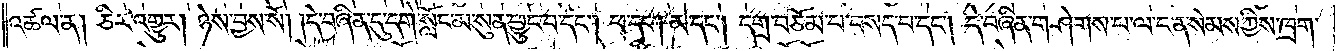འཚལ་ན། ཅིར་འགྱུར། ཉེས་བྱས་སོ། །དེ་བཞིན་དུ་དགེ་སློང་མ་སུན་ཕྱུང་བ་དང༌། ཕ་དང༌། མ་དང༌། དགྲ་བཅོམ་པ་བསད་པ་དང༌། དེ་བཞིན་གཤེགས་པ་ལ་ངན་སེམས་ཀྱིས་ཁྲག་
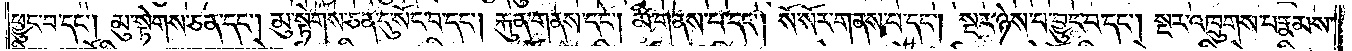ཕྱུང་བ་དང༌། མུ་སྟེགས་ཅན་དང༌། མུ་སྟེགས་ཅན་དུ་སོང་བ་དང༌། རྐུན་གནས་དང༌། མི་གནས་པ་དང༌། སོ་སོར་གནས་པ་དང༌། སྔར་ཉེས་པ་བྱུང་བ་དང༌། སྔར་འཁྲུགས་པ་རྣམས་
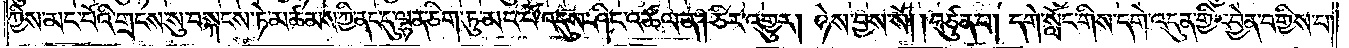ཀྱིས་མང་པོའི་གྲངས་སུ་བསྐངས་ཏེ་མཚམས་ཀྱི་ནང་དུ་ལྷན་ཅིག་ཏུ་མང་པོ་འདུས་ཤིང་འཚལ་ན། ཅིར་འགྱུར། ཉེས་བྱས་སོ། །བཙུན་པ། དགེ་སློང་གིས་དགེ་འདུན་གྱི་དབྱེན་བགྱིས་པ་
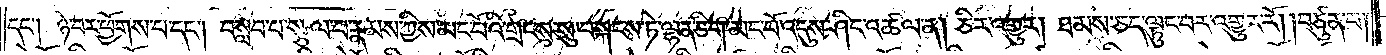དང༌། ཉེ་བར་ཕྱོགས་པ་དང༌། བསླབ་པ་སྩལ་པ་རྣམས་ཀྱིས་མང་པོའི་གྲངས་སུ་བསྐངས་ཏེ་ལྷན་ཅིག་མང་པོ་འདུས་ཤིང་འཚལ་ན། ཅིར་འགྱུར། ཐམས་ཅད་ལྟུང་བོར་འགྱུར་རོ། །བཙུན་པ།
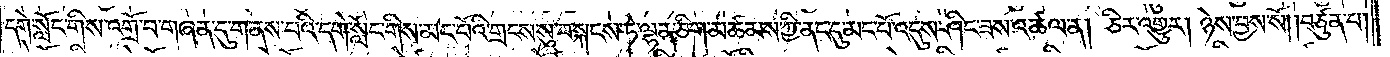དགེ་སློང་གིས་འགྲོ་བ་གཞན་དུ་གནས་པའི་དགེ་སློང་གིས་མང་པོའི་གྲངས་སུ་བསྐངས་ཏེ་ལྷན་ཅིག་མཚམས་ཀྱི་ནང་དུ་མང་པོ་འདུས་ཤིང་ཟས་འཚལ་ན། ཅིར་འགྱུར། ཉེས་བྱས་སོ། །བཙུན་པ།
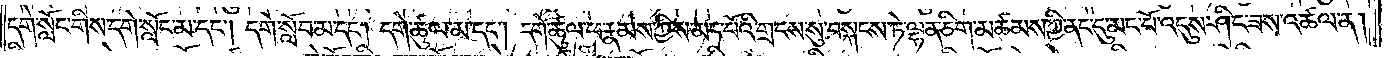དགེ་སློང་གིས་དགེ་སློང་མ་དང༌། དགེ་སློབ་མ་དང༌། དགེ་ཚུལ་མ་དང༌། དགེ་ཚུལ་ཕ་རྣམས་ཀྱིས་མང་པོའི་གྲངས་སུ་བསྐངས་ཏེ་ལྷན་ཅིག་མཚམས་ཀྱི་ནང་དུ་མང་པོ་འདུས་ཤིང་ཟས་འཚལ་ན།
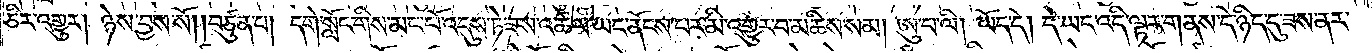ཅིར་འགྱུར། ཉེས་བྱས་སོ། །བཙུན་པ། དགེ་སློང་གིས་མང་པོ་འདུས་ཏེ་ཟས་འཚལ་ཡང་ནོངས་པར་མི་འགྱུར་བ་མཆིས་སམ། ཨུ་པ་ལི། ཡོད་དེ། དེ་ཡང་འདི་ལྟར་གནས་དེ་ཉིད་དུ་ཟས་ནར་
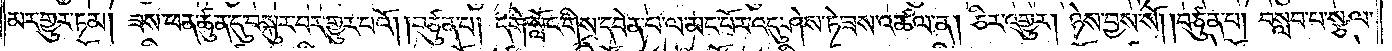མར་གྱུར་ཏམ། ཟས་ཕན་ཚུན་དུ་བསྐུར་བར་གྱུར་པའོ། །བཙུན་པ། དགེ་སློང་གིས་དབེན་པ་ལ་མང་པོར་འདུ་ཤེས་ཏེ་ཟས་འཚལ་ན། ཅིར་འགྱུར། ཉེས་བྱས་སོ། །བཙུན་པ། བསླབ་པ་སྩལ་
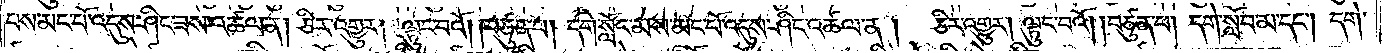པས་མང་པོ་འདུས་ཤིང་ཟས་འཚལ་ན། ཅིར་འགྱུར། ལྟུང་བའོ། །བཙུན་པ། དགེ་སློང་མས་མང་པོ་འདུས་ཤིང་འཚལ་ན། ཅིར་འགྱུར། ལྟུང་བའོ། །བཙུན་པ། དགེ་སློང་མ་དང༌། དགེ་
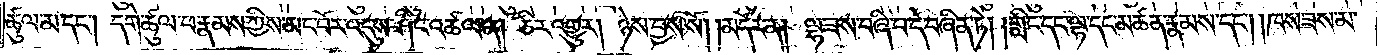ཚུལ་མ་དང༌། དགེ་ཚུལ་ཕ་རྣམས་ཀྱིས་མང་པོར་འདུས་ཤིང་འཚལ་ན། ཅིར་འགྱུར། ཉེས་བྱས་སོ།    །མདོར་ན། ལྷ་ཟས་བཞི་པ་དེ་བཞིན་ཏེ། གླིང་དང་ལྷ་དང་མཚན་རྣམས་དང༌། །ཁས་ཟས་མ་
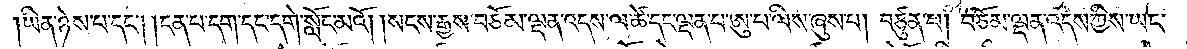ཡིན་ཉེས་པ་དང༌། །ངན་པ་དག་དང་དགེ་སློང་མའོ། །སངས་རྒྱས་བཅོམ་ལྡན་འདས་ལ་ཚེ་དང་ལྡན་པ་ཨུ་པ་ལིས་ཞུས་པ། བཙུན་པ། བཅོམ་ལྡན་འདས་ཀྱིས་ཡང་
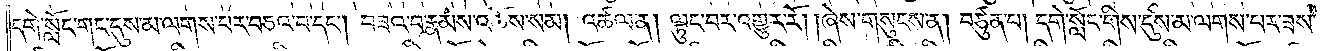དགེ་སློང་གང་དུས་མ་ལགས་པར་བཅའ་བ་དང༌། བཟའ་བ་རྣམས་འཆོས་སམ། འཚལ་ན། ལྟུང་བར་འགྱུར་རོ། །ཞེས་གསུངས་ན། བཙུན་པ། དགེ་སློང་གིས་དུས་མ་ལགས་པར་ཟས་
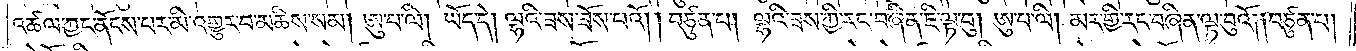འཚལ་ཀྱང་ནོངས་པར་མི་འགྱུར་བ་མཆིས་སམ། ཨུ་པ་ལི། ཡོད་དེ། ལྷའི་ཟས་ཟོས་པའོ། །བཙུན་པ། ལྷའི་ཟས་ཀྱི་རང་བཞིན་ཇི་ལྟ་བུ། ཨུ་པ་ལི། མར་གྱི་རང་བཞིན་ལྟ་བུའོ། །བཙུན་པ།
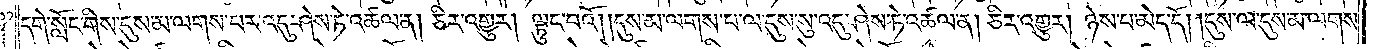དགེ་སློང་གིས་དུས་མ་ལགས་པར་འདུ་ཤེས་ཏེ་འཚལ་ན། ཅིར་འགྱུར། ལྟུང་བའོ། །དུས་མ་ལགས་པ་ལ་དུས་སུ་འདུ་ཤེས་ཏེ་འཚལ་ན། ཅིར་འགྱུར། ཉེས་པ་མེད་དོ། །དུས་ལ་དུས་མ་ལགས་
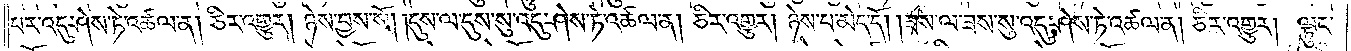པར་འདུ་ཤེས་ཏེ་འཚལ་ན། ཅིར་འགྱུར། ཉེས་བྱས་སོ། །དུས་ལ་དུས་སུ་འདུ་ཤེས་ཏེ་འཚལ་ན། ཅིར་འགྱུར། ཉེས་པ་མེད་དོ། །ཟས་ལ་ཟས་སུ་འདུ་ཤེས་ཏེ་འཚལ་ན། ཅིར་འགྱུར། ལྟུང་
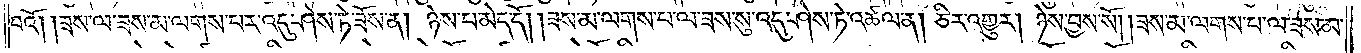བའོ། །ཟས་ལ་ཟས་མ་ལགས་པར་འདུ་ཤེས་ཏེ་ཟོས་ན། ཉེས་པ་མེད་དོ། །ཟས་མ་ལགས་པ་ལ་ཟས་སུ་འདུ་ཤེས་ཏེ་འཚལ་ན། ཅིར་འགྱུར། ཉེས་བྱས་སོ། །ཟས་མ་ལགས་པ་ལ་ཟས་མ་
